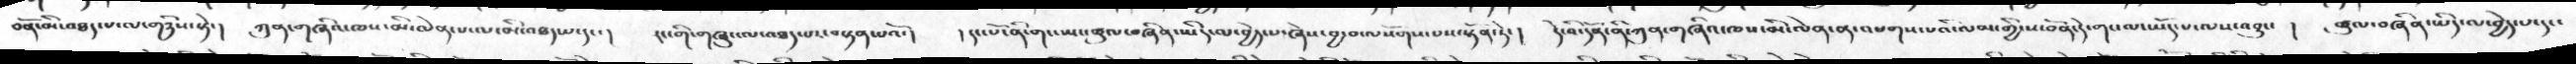བོན་མི་འཐད་པ་ལ་གཉིས་སྟེ་།  ཀུན་གཞིའ་ཁས་མི་ལེན་པ་ལ་མི་འཐད་པ་དང་།  རང་གི་གཞུང་ལ་འཐད་པར་བསྟན་པའོ་།  ། དང་པོ་ནི་གང་ཡང་ཚུལ་བཞིན་ཡིད་ལ་བྱེད་པ་ཞེས་བྱ་བ་ལསོགས་པས་སྟོན་ཏེ་།  དེ་འི་དོན་ནི་ཀུན་གཞིའ་ཁས་མི་ལེན་ན་འཕགས་པའི་ལམ་གྱི་ས་བོན་དེ་གསལ་ཡོད་པ་ལས་འབྱུང་།  ཚུལ་བཞིན་ཡིད་ལ་བྱེད་པ་དང་
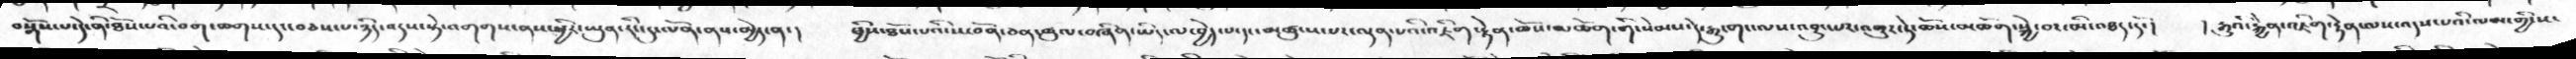བསྒོས་པ་དེ་ནི་ཐོས་པའི་བག་ཆགས་དང་བཅས་པ་ཉིད་འདས་སྟེ་འགགས་ནས་ཕྱིར་ཡུན་རིང་དུ་ལོན་ནས་མྱེད་ན་།  ཕྱིས་ཐོས་པའི་ས་བོན་ཚུལ་བཞིན་ཡིད་ལ་བྱེད་པ་དང་མཚུངས་པར་ལྡན་པའི་འཇིག་རྟེན་ཆོས་མཆོག་གི་སེམས་དེ་རྒྱུ་གང་ལས་འབྱུང་པར་འགྱུར་ཏེ་ཆོས་མཆོག་སྐྱེ་བ་མི་འཐད་དོ་།   །རྒྱུའི་རྐྱེན་འཇིག་རྟེན་ལས་འདས་པའི་ལམ་གྱི་ས་
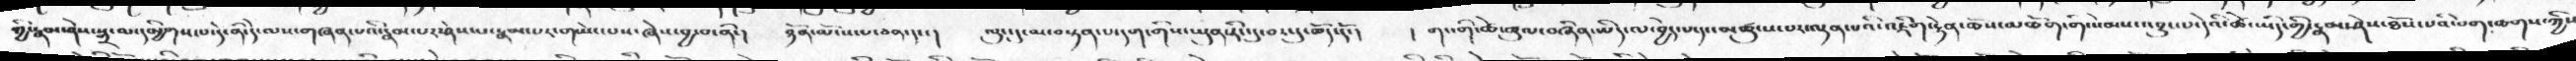གྱི་རྣམ་ཤེས་སྒྲ་མ་དམྱིགས་པ་དེ་ནི་དེ་ལས་གཞན་པའི་རྣམ་པར་ཤེས་པ་རྣམ་པར་གཡེང་པས་ཞེས་བྱ་བ་ནི་།  ཉོན་མོངས་པ་ཅན་དང་།  ལུང་དུ་མ་བསྟན་པ་དག་གིས་ཡུན་རིང་དུ་བར་དུ་ཆོད་དོ་།  ། གང་གི་ཚེ་ཚུལ་བཞིན་ཡིད་ལ་བྱེད་པ་དང་མཚུངས་པར་ལྡན་པའི་འཇིག་རྟེན་ཆོས་མཆོག་གི་སེམས་འབྱུང་པ་དེའི་ཚེ་ཡིད་གྱི་རྣམ་ཤེས་ཐོས་པའི་བག་ཆགས་ཀྱི་
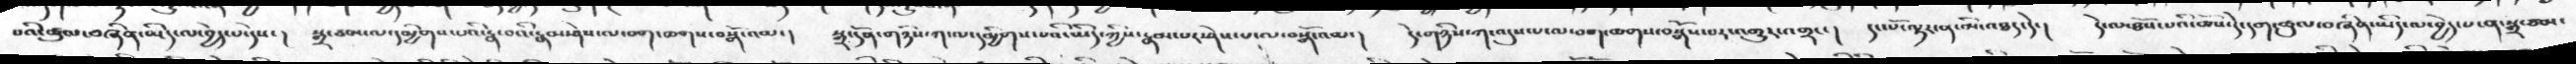པའི་ཚུལ་བཞིན་ཡིད་ལ་བྱེད་པ་དེས་།    སྒྲ་ཙམ་ལ་དམྱིགས་པའི་རྣ་བའི་རྣམ་ཤེས་ལ་བག་ཆགས་བསྒོ་འམ་།   སྒྲ་དོན་གཉིས་ཀ་ལ་དམྱིགས་པའི་ཡིད་ཀྱིས་རྣམ་པར་ཤེས་པ་ལ་བསྒོ་འམ་།   དེ་གཉིས་ཀ་འདུས་པ་ལ་བག་ཆགས་བསྒོས་པར་འགྱུར་འགྲང་།   དང་པོ་ལྟར་ན་མི་འཐད་དེ་།   དེ་ལ་ཐོས་པའི་ཆོས་དེ་དག་ཚུལ་བཞིན་ཡིད་ལ་བྱེད་པ་ན་སྒྲ་ཙམ་
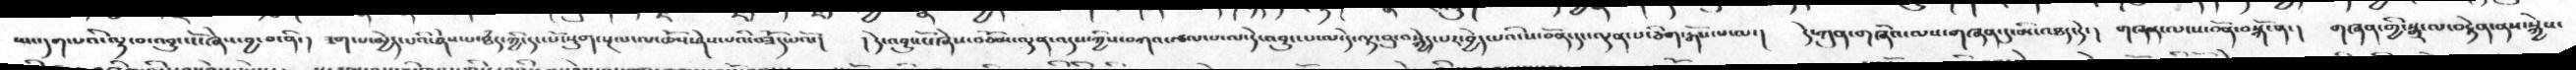ཡང་དག་པའི་ལྟ་བ་འབྱུང་ངོ་ཞེས་བྱ་བ་ནི་།   ཟག་པ་མྱེད་པའི་ཤེས་པ་ཐཾད་ཀྱི་དང་པོ་སྡུག་སྔལ་ལ་ཆོས་ཤེས་པའི་བཟོད་པའོ་།   ། དེ་འབྱུང་ངོ་ཞེས་བཅོམ་ལྡན་འདས་ཀྱིས་བཀའ་སྩལ་པ་ལ་དེ་འབྱུང་པ་ལ་དེ་ལྟ་བུ་བསྐྱེད་པར་བྱེད་པའི་ས་བོན་དང་ལྡན་པ་ཅིག་རྒོས་པ་ལ་།  དེ་ཀུན་གཞིའ་ལས་གཞན་དུ་མི་འཐད་དེ་།   གཞན་ལས་ས་བོན་བསྐོ་ན་།   གཞན་གྱི་སྒྲ་ལ་བརྟེན་ནས་སྐྱེས་
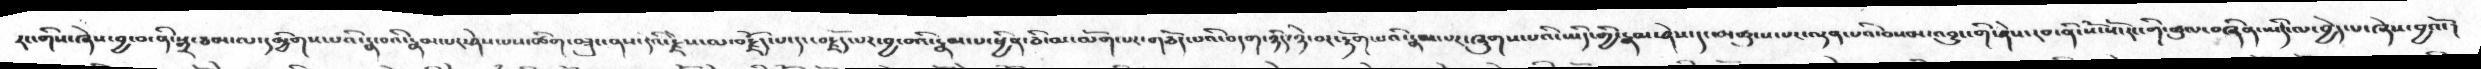རང་གིས་ཞེས་བྱ་བ་ནི་སྒྲ་ཙམ་ལ་དམྱིགས་པའི་རྣ་བའི་རྣམ་པར་ཤེས་པས་ཚིག་བཟུང་ནས་དེའི་རྗེས་མ་བརྗོད་པ་དང་བརྗོད་པར་བྱ་བའི་རྣམ་པ་ཕྱིན་ཅི་མ་ལོག་པར་གཅོད་པའི་བདག་ཉིད་ཉེ་བར་རྟོག་པའི་རྣམ་པར་ཞུགས་པའི་ཡིད་གྱི་རྣམ་ཤེས་དང་མཚུངས་པར་ལྡན་པའི་བསམ་འབྱུང་གི་ཤེས་རབ་ནི་སོ་སོ་རང་གི་ཚུལ་བཞིན་ཡིད་ལ་བྱེད་པ་ཞེས་བྱའོ་།
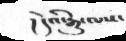།དེའི་རྒྱུ་ལས་
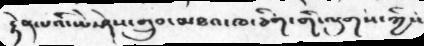རྟེན་པའི་ཡེ་ཤེས་གྲུབ་མཐའ་ཁ་ཅིག་གི་ལུགས་ཀྱིས
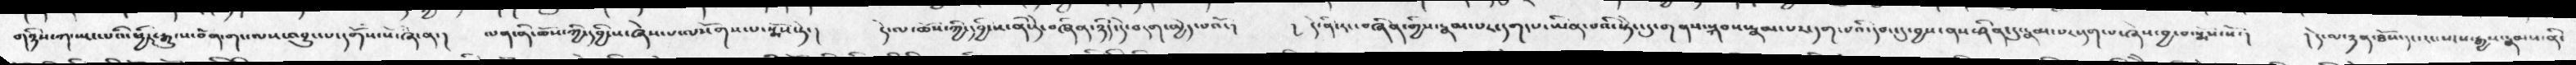གཉིས་ག་སྤང་པའི་ཕྱིར་རྒྱུ་ས་བོན་གང་ལས་འབྱུང་པ་དགོས་སོ་ཞེ་ན་།  ལན་ནི་ཆོས་ཀྱི་དབྱིངས་ཞེས་པ་ལསོགས་པ་སྨོས་ཏེ་།   དེ་ལ་ཆོས་ཀྱི་དབྱིངས་ནི་དེ་བཞིན་ཉིད་དེ་བདག་མྱེད་པའོ་།  ། དེ་ནི་རང་བཞིན་གྱིས་རྣམ་པར་དག་པ་ཡིན་པའི་སྟེང་དུ་གནས་སྐབས་རྣམ་པར་དག་པའི་དབང་དུ་བྱས་ནས་ཤིན་དུ་རྣམ་པར་དག་པ་ཞེས་བྱ་བ་སྨོས་སོ་།  ། དེ་ལ་ཉན་ཐོས་དང་རང་སངས་རྒྱས་རྣམས་ནི་
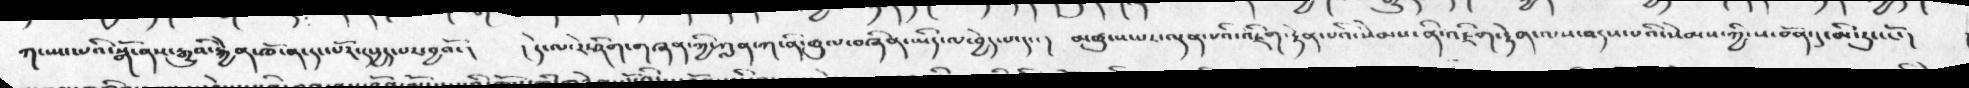ཀ་ཡང་པའི་སྒོ་ནས་རྒྱུའི་རྐྱེན་ཁོ་ན་དང་པོར་དཔྱད་པར་བྱའོ་།   །དེ་ལ་རེ་ཤིག་གཞན་ཀྱི་ཀླན་ཀ་ནི་ཚུལ་བཞིན་ཡིད་ལ་བྱེད་པ་དང་།    མཚུངས་པར་ལྡན་པའི་འཇིག་རྟེན་པའི་སེམས་ནི་འཇིག་རྟེན་ལས་འདས་པའི་སེམས་ཀྱི་ས་བོན་དུ་མི་རུང་ངོ་།
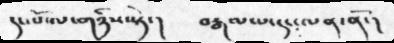དང་པོ་ལ་གཉིས་སྟེ་།     བརྒལ་པ་དང་ལན་ནོ་།
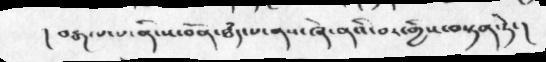། བརྒལ་པ་ནི་ས་བོན་ཐཾད་པ་ནས་ཞེ་ནའི་བར་གྱིས་བསྟན་ཏེ་།
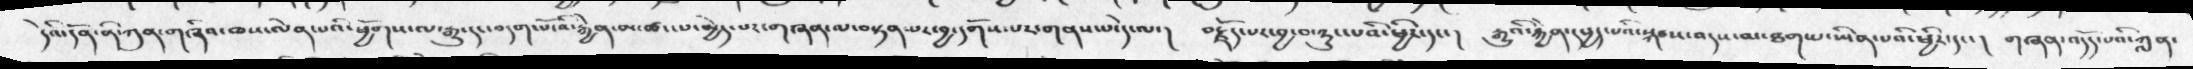དེའི་དོན་ནི་ཀུན་གཞིའ་ཁས་ལེན་པའི་ཕྱོགས་ལ་རྒྱུ་དང་བདག་པོ་འི་རྐྱེན་མ་ཚང་པ་མྱེད་པར་གཞན་ལ་བསྟན་པར་བྱ་དགོས་པར་གནས་པ་དེ་ལ་།  བརྗོད་པར་བྱ་བ་ཉུང་པའི་ཕྱིར་དང་།  རྒྱུའི་རྐྱེན་དཔྱད་པའི་སྐབས་འདས་མ་ཐག་པ་ཡིན་པའི་ཕྱིར་དང་།  གཞན་འདོད་པའི་ཀླན་
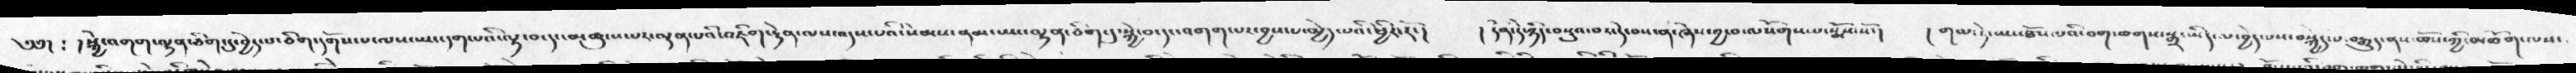༄༅། ༴ ། སྐྱེ་འགག་ལྷན་ཅིག་དུ་བྱེད་པ་ཅིག་དགོས་པ་ལས་ཡང་དག་པའི་ལྟ་བ་དང་མཚུངས་པར་ལྡན་པའི་འཇིག་རྟེན་ལས་འདས་པའི་སེམས་ནམ་ཡང་ལྷན་ཅིག་དུ་སྐྱེ་བ་དང་འགག་པར་བྱས་པ་མྱེད་པའི་ཕྱིར་རོ་།   ། དོན་དེ་ཉིད་བསྡུའ་བར་དེ་བས་ན་ཞེས་བྱ་བ་ལསོགས་པ་སྨོས་སོ་།  ། གལ་ཏེ་ཡང་ཐོས་པའི་བག་ཆགས་སྒྲ་ཡིད་ལ་བྱེད་པས་བསྐྱེད་པ་བརྒྱུད་ནས་ཆོས་ཀྱི་མཆོག་ལས་
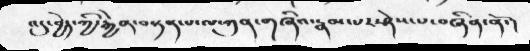འདུ་བྱེད་ཀྱི་རྐྱེན་བསྟན་པ་ལ་ཀུན་གཞིའ་རྣམ་པར་ཤེས་པ་བཞིན་ནོ་།
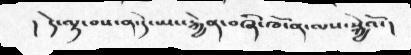།  དེ་ལྟ་བས་ན་དེ་ཡང་རྐྱེན་བཞི་ཁོ་ན་ལས་སྐྱེའོ་།
